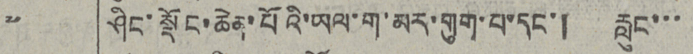༧   ཤིང་སྡོང་ཆེན་པོའི་ཡལ་ག་མར་གུག་པ་དང་། རླུང་་་
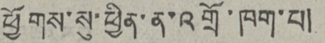ཕྱོགས་སུ་ཕྱིན་ན་འགྲོ་ཁག་པ།
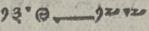༡༣.༩—༡༧.༧
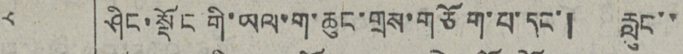༨   ཤིང་སྡོང གི་ཡལ་ག་ཆུང་གྲས་གཅོག་པ་དང་། རླུང་་
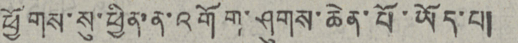ཕྱོགས་སུ་ཕྱིན་ན་འགོག་ཤུགས་ཆེན་པོ་ཡོད་པ།
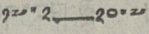༡༧.༢—༢༠.༧
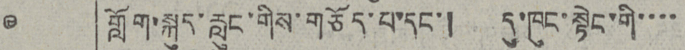༩   གློག་སྐུད་རླུང་གིས་གཅོད་པ་དང་། དུ་ཁུང་སྟེང་གི་་་་
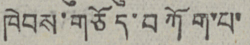ཁེབས་གཅོད་བཀོག་པ་
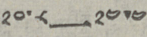༢༠.༨—༢༤.༤
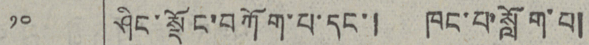༡༠   ཤིང་སྡོང་བཀོག་པ་དང་། ཁང་པ་སློག་པ།
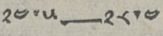༢༤.༥—༢༨.༤
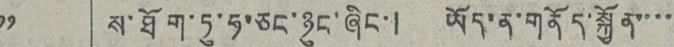༡༡   ས་ཐོག་ཏུ་ཧ་ཅང་ཉུང་ཞིང་། ཡོད་ན་གནོད་སྐྱོན་་་་
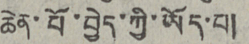ཆེན་པོ་བྱེད་ཀྱི་ཡོད་པ།
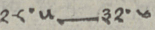༡༤.༥—༣༢.༦
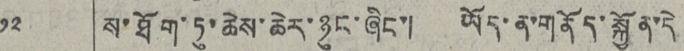༡༢   ས་ཐོག་ཏུ་ཆེས་ཆེར་ཉུང་ཞིང་། ཡོད་ན་གནོད་སྐྱོན་དེ
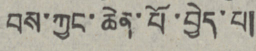བས་ཀྱང་ཆེན་པོ་བྱེད་པ།
